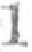1
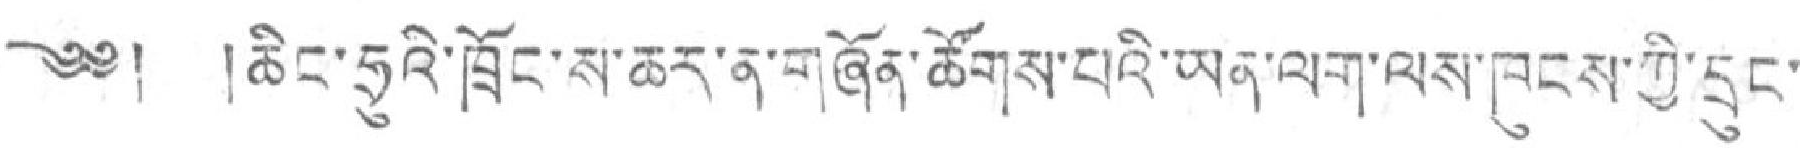༄༅། །ཆིང་ཧྲུའི་ཁྲོང་ས་ཆར་ན་གཞོན་ཚོགས་པའི་ཡན་ལག་ལས་ཁུངས་ཀྱི་དྲུང་
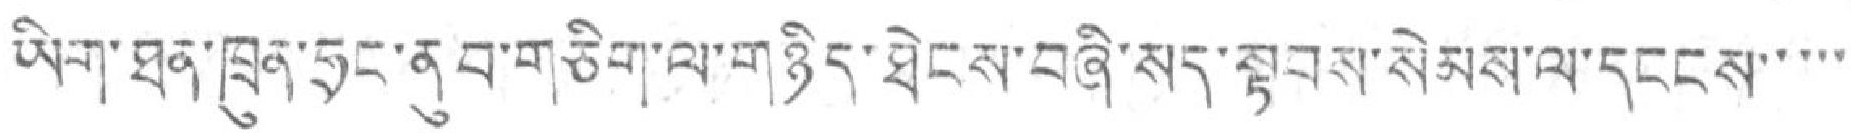ཡིག་ཐན་ཁྲུན་ཧྲང་ནུབ་གཅིག་ལ་གཉིད་ཐེངས་བཞི་སད་སྟགས་སེམས་ལ་དངངས་་་་་
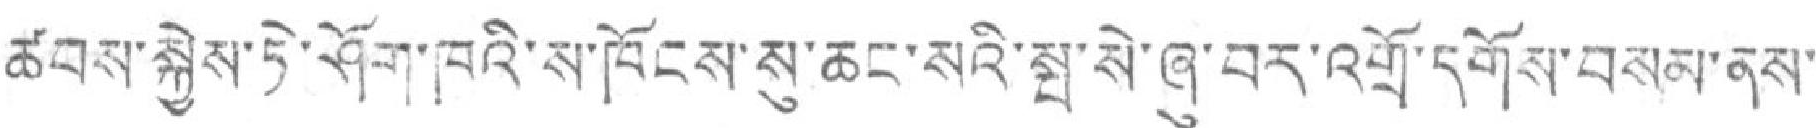ཚབས་སྐྱེས་ཏེ་ཤོག་ཁའི་ས་ཁོངས་སུ་ཆང་སའི་སྤ་སེ་ཞུ་བར་འགྲོ་དགོས་བསམ་ནས་་
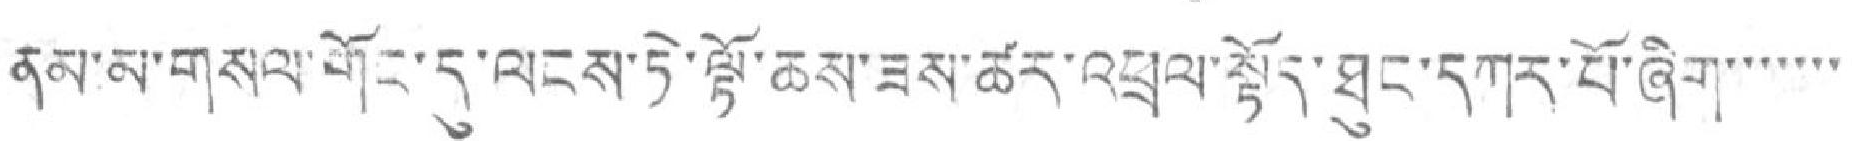ནམ་མ་གསལ་གོང་དུ་ལངས་ཏེ་ལྟོ་ཆས་ཟས་ཚར་འཕྲལ་སྟོད་ཐུང་དཀར་པོ་ཞིག་་་་་་་
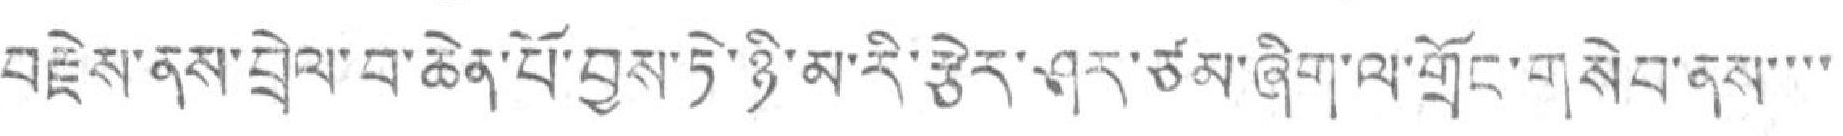བརྗེས་ནས་བྲེལ་བ་ཆེན་པོ་བྱས་ཏེ་ཉི་མ་རི་རྩེར་ཤར་ཙམ་ཞིག་ལ་གྲོང་གསེབ་ནས་་་་
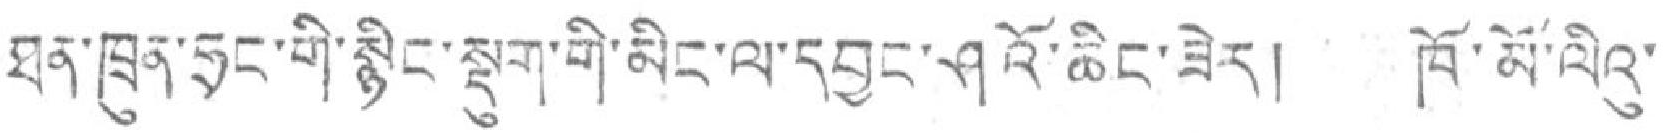ཐན་ཁྲུན་ཧྲང་གི་སྙིང་སྡུག་གི་མིང་ལ་དབྱང་ཤའོ་ཆིང་ཟེར། ཁོ་མོ་ལིའུ་
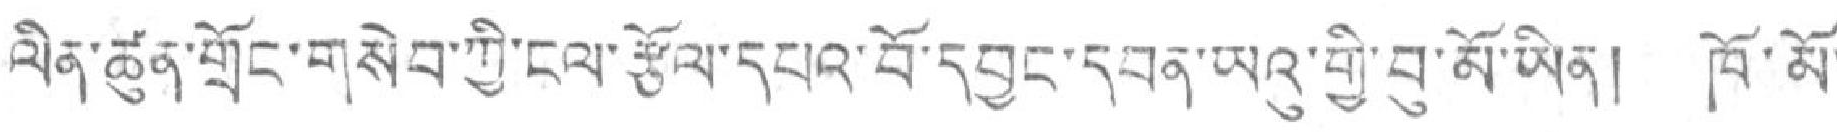ལིན་ཚུན་གྲོང་གསེབ་ཀྱི་ངལ་རྩོལ་དཔའ་བོ་དབྱང་དབན་ཡའུ་གྱི་བུ་མོ་ཡིན། ཁོ་མོ་
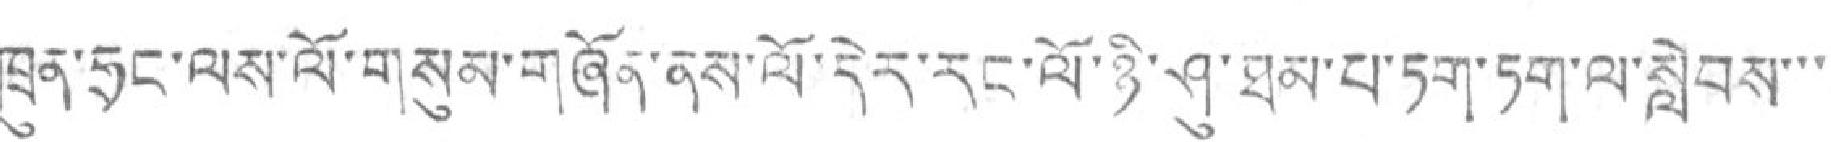ཁྲུན་ཧྲང་ལས་ལོ་གསུམ་གཞོན་ནས་ལོ་དེར་རང་ལོ་ཉི་ཤུ་ཐམ་པ་ཏག་ཏག་ལ་སླེབས་་་
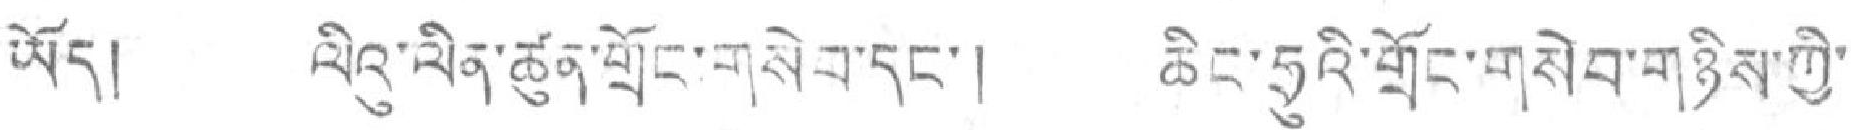ཡོད། ལིའུ་ལིན་ཚུན་གྲོང་གསེབ་དང་། ཆིང་ཧྲུའི་གྲོང་གསེབ་གཉིས་ཀྱི་
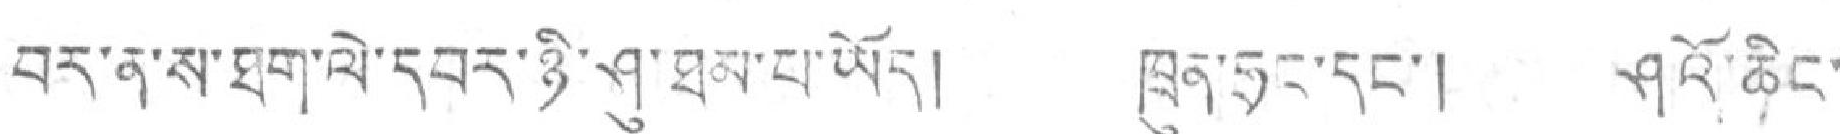བར་ན་ས་ཐག་ལེ་དབར་ཉི་ཤུ་ཐམ་པ་ཡོད། ཁྲུན་ཧྲང་དང་། ཤའོ་ཆིང་
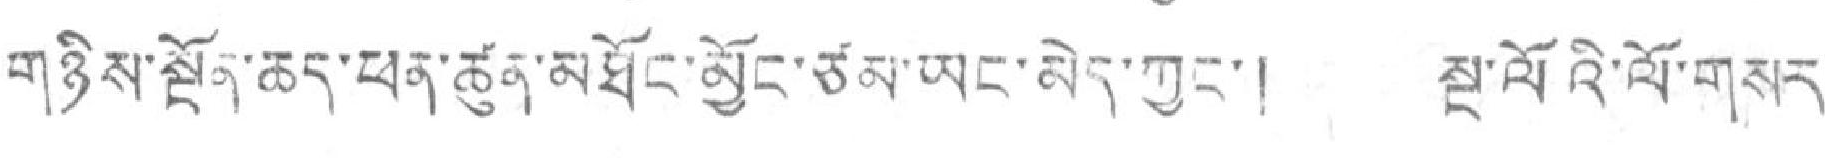གཉིས་སྔོན་ཆད་ཕན་ཚུན་མཐོང་མྱོང་ཙམ་ཡང་མེད་ཀྱང་། སྔ་ལོའི་ལོ་གསར་
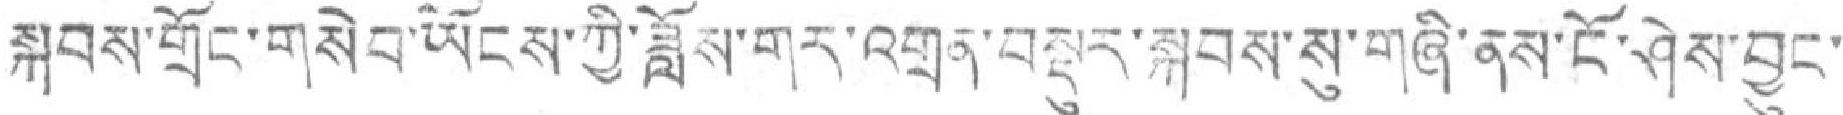སྐབས་གྲོང་གསེབ་ཡོངས་ཀྱི་ཟློས་གར་འགྲན་བསྡུར་སྐབས་སུ་གཞི་ནས་ངོ་ཤེས་བྱུང་
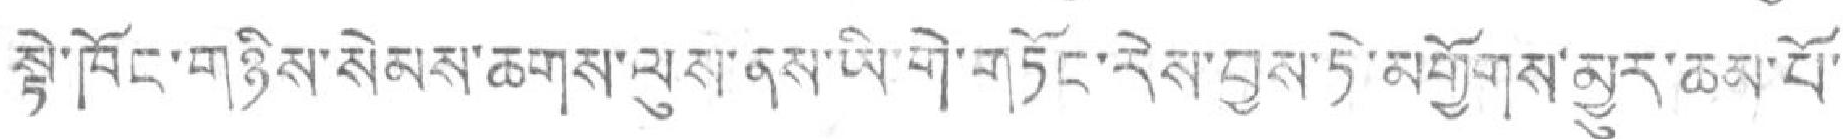སྟེ་ཁོང་གཉིས་སེམས་ཆགས་ལུས་ནས་ཡི་གེ་གཏོང་རེས་བྱས་ཏེ་མགྱོགས་མྱུར་ཆམ་པོ་
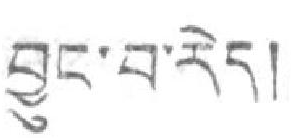བྱུང་བ་རེད།
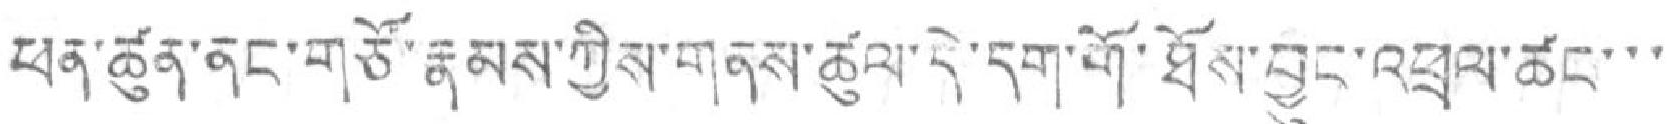ཕན་ཚུན་ནང་གཙོ་རྣམས་ཀྱིས་གནས་ཚུལ་དེ་དག་གོ་ཐོས་བྱུང་འཕྲལ་ཚང་་་
